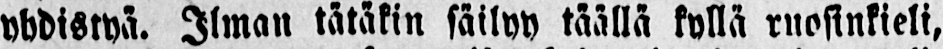yhdistyä. Ilman tätäkin säilyy täällä kyllä ruosinkieli,
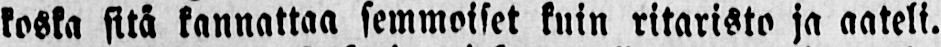koska sitä kannattaa semmoiset kuin ritarista ja aateli.
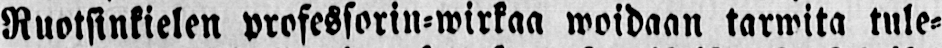Ruotsinkielen professorin-wirkaa woidaan tarwita tule-
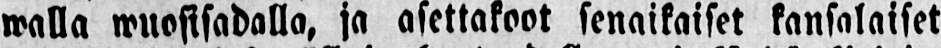walla wuosisadalla, ja asettakoot senaikaiset kansalaiset
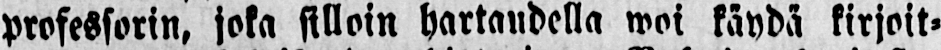professorin, joka silloin hartaudella woi käydä kirjoit-
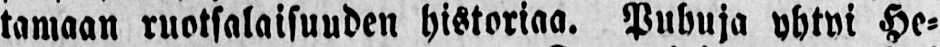tamaan ruotsalaisuuden historiaa. Puhuja yhtyi He-
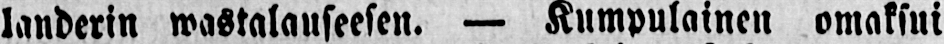landerin wastalauseesen. — Kumpulainen omaksui
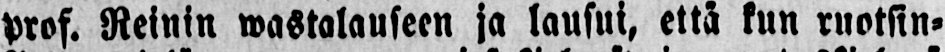prof. Reinin wastalauseen ja lausui, että kun ruotsin-
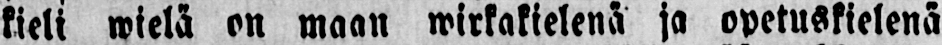kieli wielä on maan wirkakielenä ja opetuskielenä
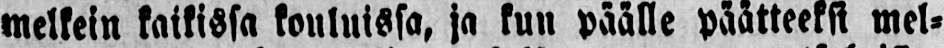melkein kaikissa kouluissa, ja kun päälle päätteeksi mel-
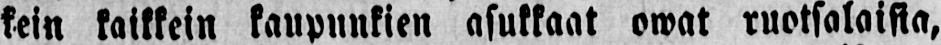kein kaikkein kaupunkien asukkaat owat ruotsalaisia,
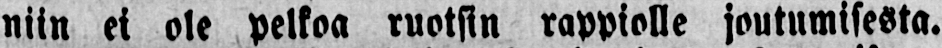niin et ole pelkoa ruotsin rappiolle joutumisesta.
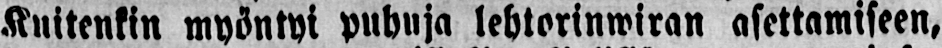Kuitenkin myöntyi puhuja lehtorinwiran asettamiseen,
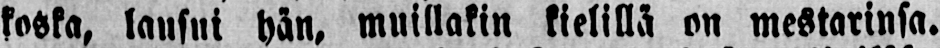koska, lausut hän, muillakin kielillä on mestarinsa.
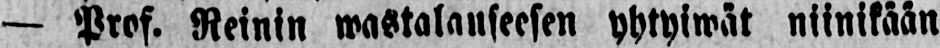— Prof. Reinin wastalauseesen yhtyiwät niinikään
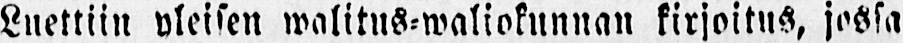Luettiin yleisen walitus-waliokunnan kirjoitus, jossa
